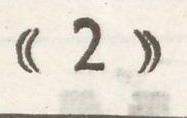(( 2 )) ༈ བོད་མིའི་རང་དབང་གསར་ཤོག །
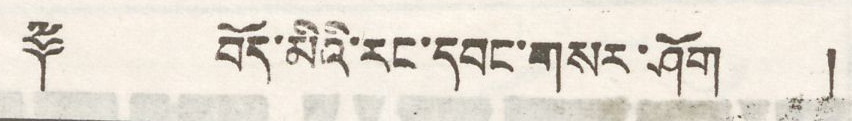(( 2 )) ༈ བོད་མིའི་རང་དབང་གསར་ཤོག །
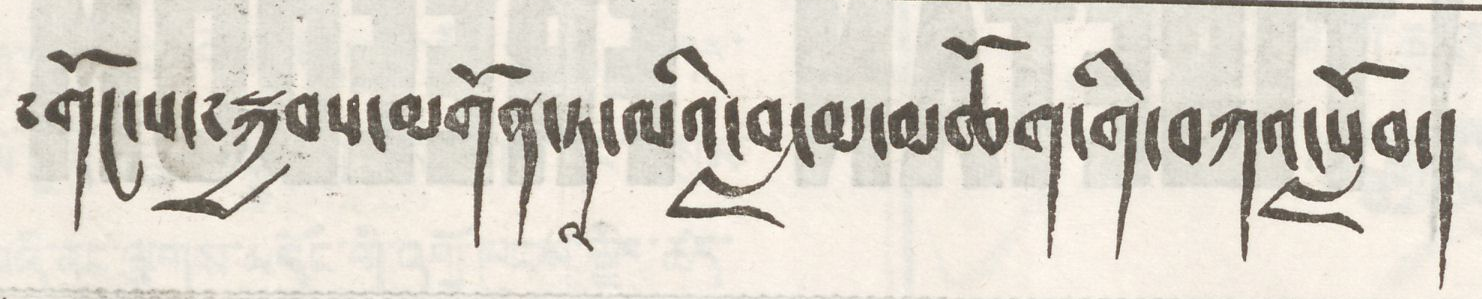༸གོང་ས་༸སྐྱབས་མགོན་ཏྰ་ལའི་བླ་མ་མཆོག་གི་བཀའ་སློབ།
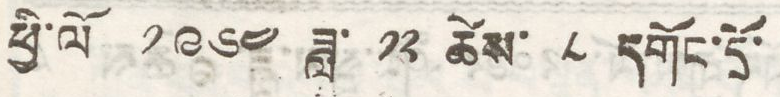ཕྱི་ལོ་ ༡༩༦༤ ཟླ་ ༡༢ ཚེས་ ༨ དགོང་དྲོ་
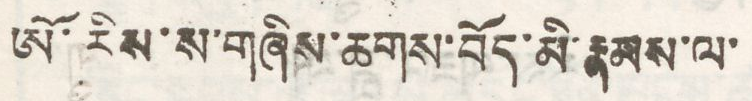ཨོ་རིས་ས་གཞིས་ཆགས་བོད་མི་རྣམས་ལ་
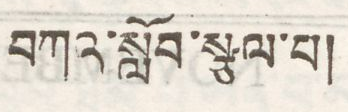བཀའ་སློབ་སྩལ་པ།
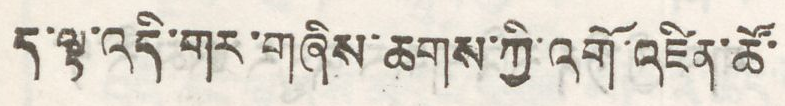ད་ལྟ་འདི་གར་གཞིས་ཆགས་ཀྱི་འགོ་འཛིན་ཚོ་
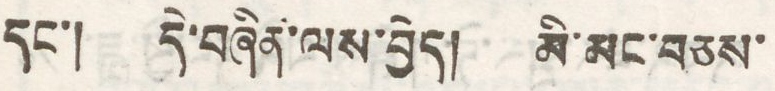དང་། དེ་བཞིན་ལས་བྱེད། མི་མང་བཅས་
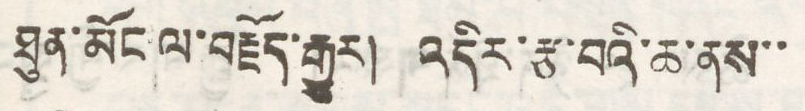ཐུན་མོང ལ་བརྗོད་རྒྱུར། འདིར་རྩ་བའི་ཆ་ནས་་
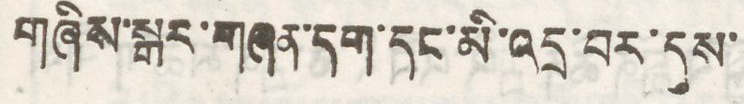གཞིས་སྒར་གཞན་དག་དང་མི་འདྲ་བར་དུས་
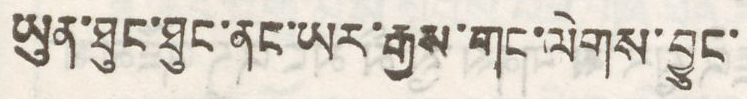ཡུན་ཐུང་ཐུང་ནང་ཡར་རྒྱས་གང་ལེགས་བྱུང་
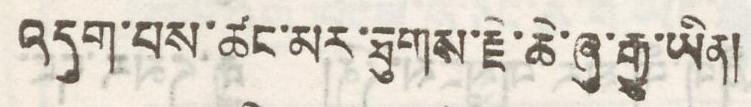འདུག་པས་ཚང་མས་ཐུགས་རྗེ་ཆེ་ཞུ་རྒྱ་ཡིན།
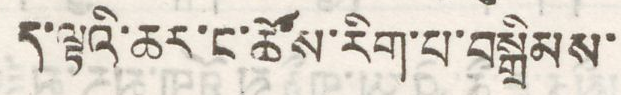ད་ལྟའི་ཆར་ང་ཚོས་རིག་པ་བསྒྲིམས་
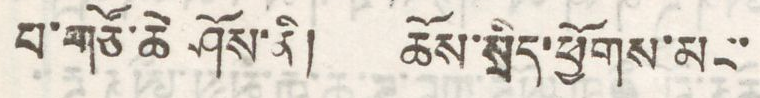པ་གཙོ་ཆེ ཤོས་ནི། ཆོས་སྲིད་ཕྱོགས་མང་
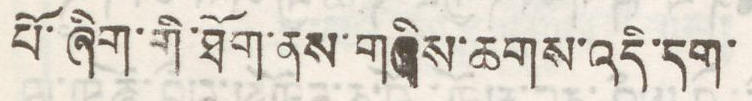པོ་ཞིག་གི་ཐོག་ནས་གཞིས་ཆགས་འདི་དག་
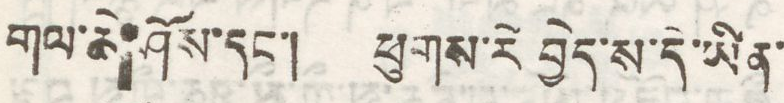གལ་ཆེ་ཤོས་དང་། ཕུགས་རེ བྱེད་ས་དེ་ཡིན་
